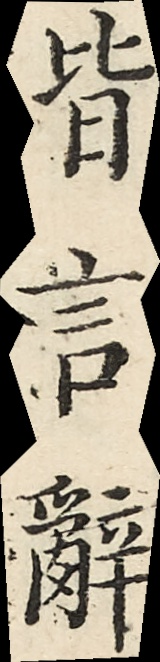皆言辭
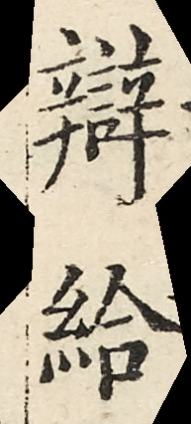辯給
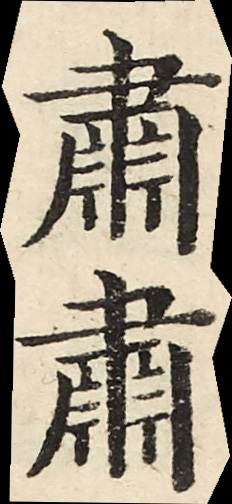肅肅
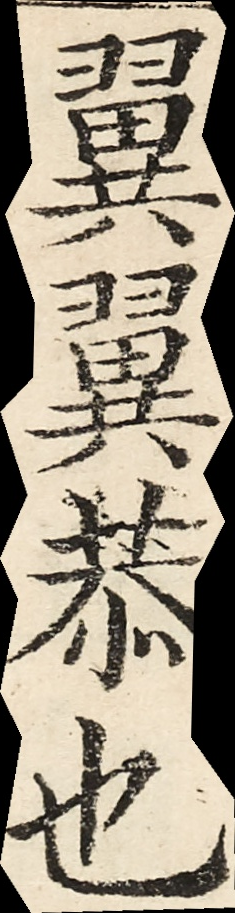翼翼恭也
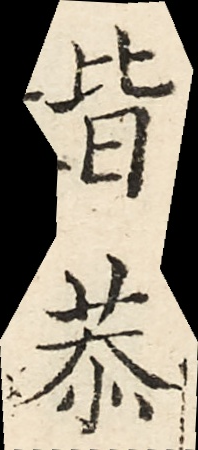皆恭
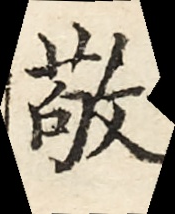敬
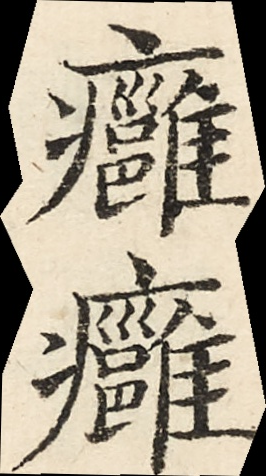廱廱
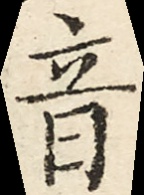音
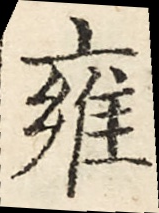雍
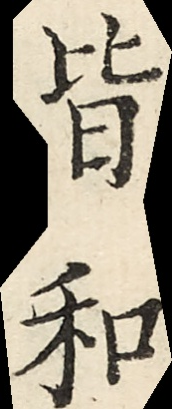皆和
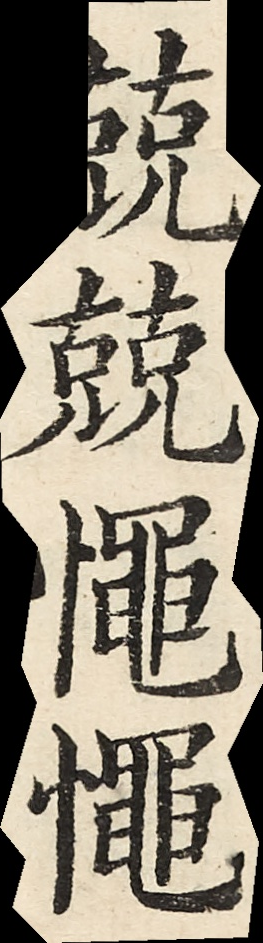兢兢憴憴
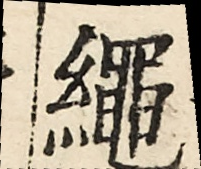繩
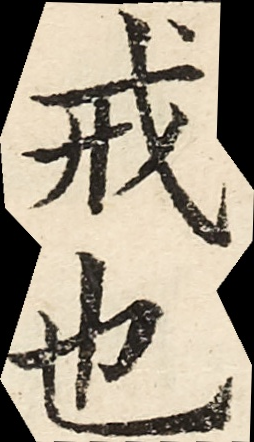戒也
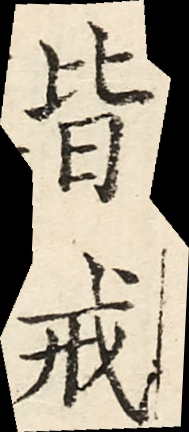皆戒
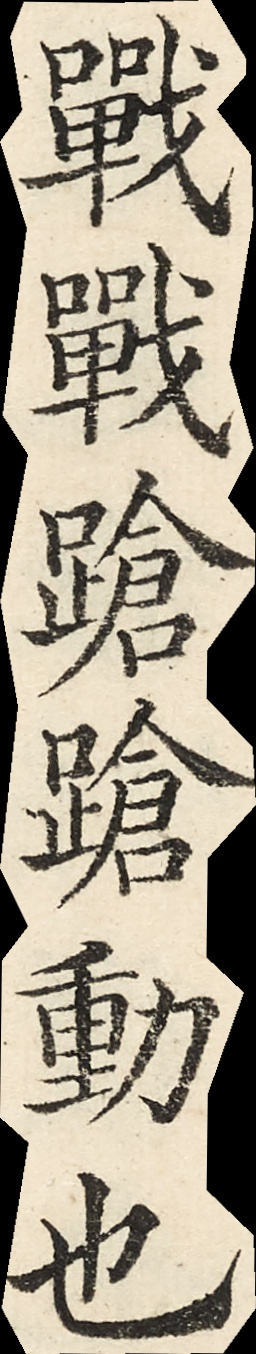戰戰蹌蹌動也
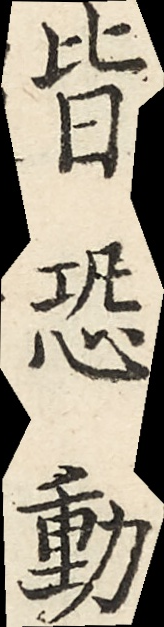皆恐動
